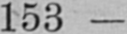153
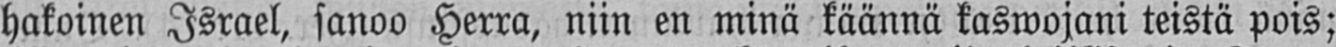hakoinen Israel, sanoo Herra, niin en minä käännä kaswojani teistä pois;
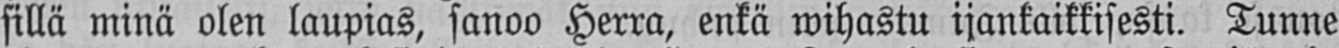sillä minä olen laupias, sanoo Herra, enkä wihastu ijankaikkisesti. Tunne
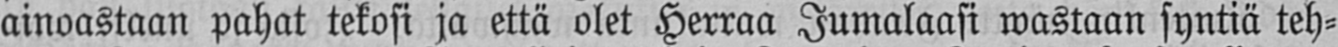ainoastaan pahat tekosi ja että olet Herraa Jumalaasi wastaan syntiä teh-
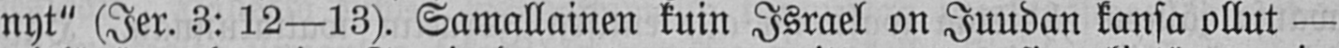nyt" (Jer. 3: 12—13). Samallainen kuin Israel on Juudan kansa ollut —
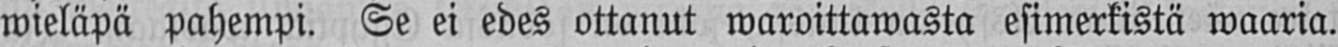wieläpä pahempi. Se ei edes ottanut waroittawasta esimerkistä waaria.
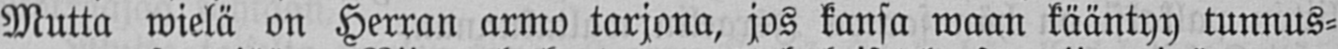Mutta wielä on Herran armo tarjona, jos kansa waan kääntyy tunnus-
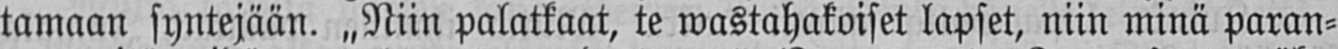tamaan syntejään. „Niin palatkaat, te wastahakoiset lapset, niin minä paran-
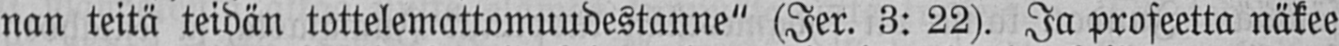nan teitä teidän tottelemattomuudestanne" (Jer. 3: 22). Ja profeetta näkee
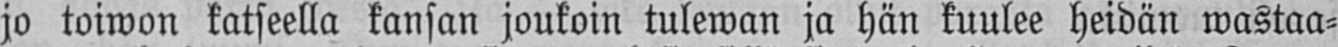jo toiwon katseella kansan joukoin tulewan ja hän kuulee heidän wastaa-
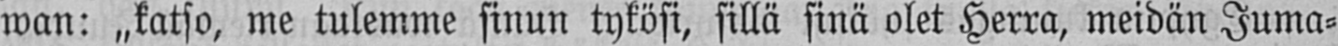wan: „katso, me tulemme sinun tykösi, sillä sinä olet Herra, meidän Juma-
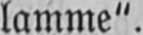lamme".
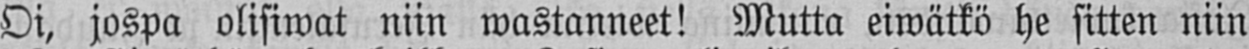Oi, jospa olisiwat niin wastanneet! Mutta eiwätkö he sitten niin
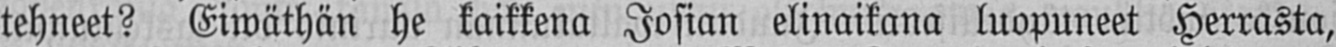tehneet? Eiwäthän he kaikkena Josian elinaikana luopuneet Herrasta,
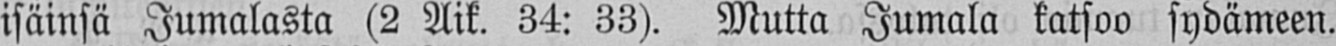isäinsä Jumalasta (2 Aik. 34: 33). Mutta Jumala katsoo sydämeen.
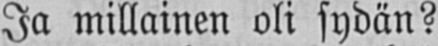Ja millainen oli sydän?
